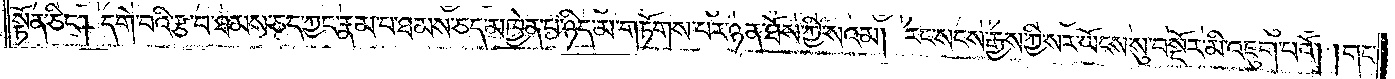སྟོན་ཅིང༌། དགེ་བའི་རྩ་བ་ཐམས་ཅད་ཀྱང་རྣམ་པ་ཐམས་ཅད་མཁྱེན་པ་ཉིད་མ་གཏོགས་པར་ཉན་ཐོས་ཀྱི་སའམ། རང་སངས་རྒྱས་ཀྱི་སར་ཡོངས་སུ་བསྔོར་མི་འཇུག་པའོ། །གང་
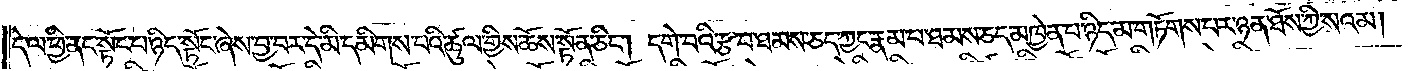དེ་ལ་ཕྱི་ནང་སྟོང་པ་ཉིད་སྟོང་ཞེས་བྱ་བར་དེ་མི་དམིགས་པའི་ཚུལ་གྱིས་ཆོས་སྟོན་ཅིང༌། དགེ་བའི་རྩ་བ་ཐམས་ཅད་ཀྱང་རྣམ་པ་ཐམས་ཅད་མཁྱེན་པ་ཉིད་མ་གཏོགས་པར་ཉན་ཐོས་ཀྱི་སའམ།
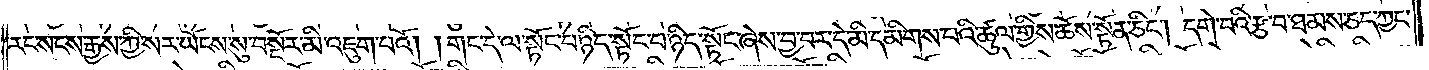རང་སངས་རྒྱས་ཀྱི་སར་ཡོངས་སུ་བསྔོར་མི་འཇུག་པའོ། །གང་དེ་ལ་སྟོང་པ་ཉིད་སྟོང་པ་ཉིད་སྟོང་ཞེས་བྱ་བར་དེ་མི་དམིགས་པའི་ཚུལ་གྱིས་ཆོས་སྟོན་ཅིང༌། དགེ་བའི་རྩ་བ་ཐམས་ཅད་ཀྱང་
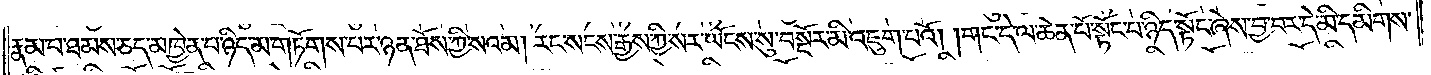རྣམ་པ་ཐམས་ཅད་མཁྱེན་པ་ཉིད་མ་གཏོགས་པར་ཉན་ཐོས་ཀྱི་སའམ། རང་སངས་རྒྱས་ཀྱི་སར་ཡོངས་སུ་བསྔོར་མི་འཇུག་པའོ། །གང་དེ་ལ་ཆེན་པོ་སྟོང་པ་ཉིད་སྟོང་ཞེས་བྱ་བར་དེ་མི་དམིགས་
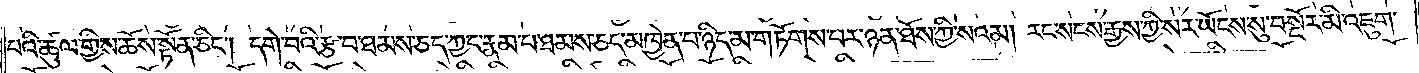པའི་ཚུལ་གྱིས་ཆོས་སྟོན་ཅིང༌། དགེ་བའི་རྩ་བ་ཐམས་ཅད་ཀྱང་རྣམ་པ་ཐམས་ཅད་མཁྱེན་པ་ཉིད་མ་གཏོགས་པར་ཉན་ཐོས་ཀྱི་སའམ། རང་སངས་རྒྱས་ཀྱི་སར་ཡོངས་སུ་བསྔོར་མི་འཇུག་
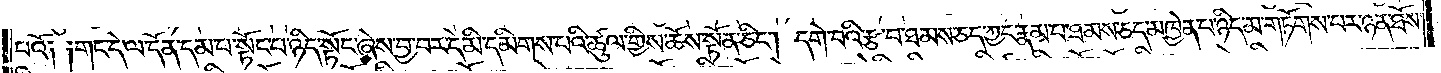པའོ༑ ༑གང་དེ་ལ་དོན་དམ་པ་སྟོང་པ་ཉིད་སྟོང་ཞེས་བྱ་བར་དེ་མི་དམིགས་པའི་ཚུལ་གྱིས་ཆོས་སྟོན་ཅིང༌། དགེ་བའི་རྩ་བ་ཐམས་ཅད་ཀྱང་རྣམ་པ་ཐམས་ཅད་མཁྱེན་པ་ཉིད་མ་གཏོགས་པར་ཉན་ཐོས་
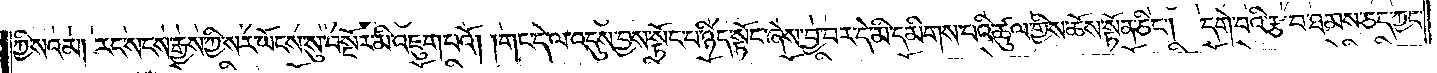ཀྱི་སའམ། རང་སངས་རྒྱས་ཀྱི་སར་ཡོངས་སུ་བསྔོར་མི་འཇུག་པའོ། །གང་དེ་ལ་འདུས་བྱས་སྟོང་པ་ཉིད་སྟོང་ཞེས་བྱ་བར་དེ་མི་དམིགས་པའི་ཚུལ་གྱིས་ཆོས་སྟོན་ཅིང༌། དགེ་བའི་རྩ་བ་ཐམས་ཅད་ཀྱང་
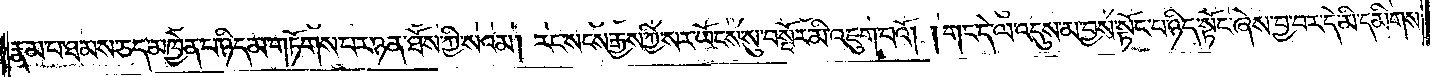རྣམ་པ་ཐམས་ཅད་མཁྱེན་པ་ཉིད་མ་གཏོགས་པར་ཉན་ཐོས་ཀྱི་སའམ། རང་སངས་རྒྱས་ཀྱི་སར་ཡོངས་སུ་བསྔོར་མི་འཇུག་པའོ། །གང་དེ་ལ་འདུས་མ་བྱས་སྟོང་པ་ཉིད་སྟོང་ཞེས་བྱ་བར་དེ་མི་དམིགས་
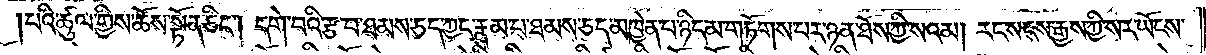པའི་ཚུལ་གྱིས་ཆོས་སྟོན་ཅིང༌། དགེ་བའི་རྩ་བ་ཐམས་ཅད་ཀྱང་རྣམ་པ་ཐམས་ཅད་མཁྱེན་པ་ཉིད་མ་གཏོགས་པར་ཉན་ཐོས་ཀྱི་སའམ། རང་སངས་རྒྱས་ཀྱི་སར་ཡོངས་
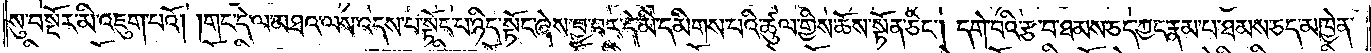སུ་བསྔོར་མི་འཇུག་པའོ། །གང་དེ་ལ་མཐའ་ལས་འདས་པ་སྟོང་པ་ཉིད་སྟོང་ཞེས་བྱ་བར་དེ་མི་དམིགས་པའི་ཚུལ་གྱིས་ཆོས་སྟོན་ཅིང༌། དགེ་བའི་རྩ་བ་ཐམས་ཅད་ཀྱང་རྣམ་པ་ཐམས་ཅད་མཁྱེན་
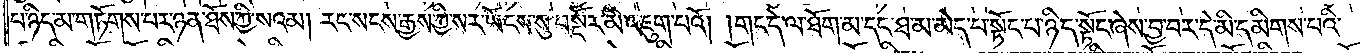པ་ཉིད་མ་གཏོགས་པར་ཉན་ཐོས་ཀྱི་སའམ། རང་སངས་རྒྱས་ཀྱི་སར་ཡོངས་སུ་བསྔོར་མི་འཇུག་པའོ། །གང་དེ་ལ་ཐོག་མ་དང་ཐ་མ་མེད་པ་སྟོང་པ་ཉིད་སྟོང་ཞེས་བྱ་བར་དེ་མི་དམིགས་པའི་
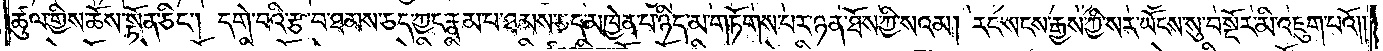ཚུལ་གྱིས་ཆོས་སྟོན་ཅིང༌། དགེ་བའི་རྩ་བ་ཐམས་ཅད་ཀྱང་རྣམ་པ་ཐམས་ཅད་མཁྱེན་པ་ཉིད་མ་གཏོགས་པར་ཉན་ཐོས་ཀྱི་སའམ། རང་སངས་རྒྱས་ཀྱི་སར་ཡོངས་སུ་བསྔོར་མི་འཇུག་པའོ༎
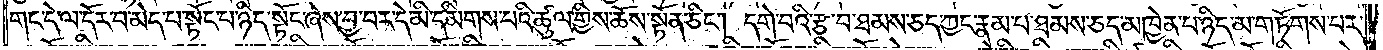གང་དེ་ལ་དོར་བ་མེད་པ་སྟོང་པ་ཉིད་སྟོང་ཞེས་བྱ་བར་དེ་མི་དམིགས་པའི་ཚུལ་གྱིས་ཆོས་སྟོན་ཅིང༌། དགེ་བའི་རྩ་བ་ཐམས་ཅད་ཀྱང་རྣམ་པ་ཐམས་ཅད་མཁྱེན་པ་ཉིད་མ་གཏོགས་པར་
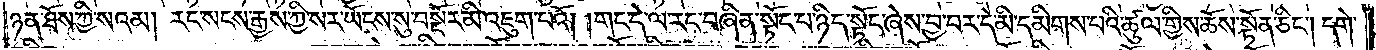ཉན་ཐོས་ཀྱི་སའམ། རང་སངས་རྒྱས་ཀྱི་སར་ཡོངས་སུ་བསྔོར་མི་འཇུག་པའོ། །གང་དེ་ལ་རང་བཞིན་སྟོང་པ་ཉིད་སྟོང་ཞེས་བྱ་བར་དེ་མི་དམིགས་པའི་ཚུལ་གྱིས་ཆོས་སྟོན་ཅིང༌། དགེ་
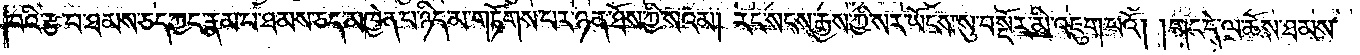བའི་རྩ་བ་ཐམས་ཅད་ཀྱང་རྣམ་པ་ཐམས་ཅད་མཁྱེན་པ་ཉིད་མ་གཏོགས་པར་ཉན་ཐོས་ཀྱི་སའམ། རང་སངས་རྒྱས་ཀྱི་སར་ཡོངས་སུ་བསྔོར་མི་འཇུག་པའོ། །གང་དེ་ལ་ཆོས་ཐམས་
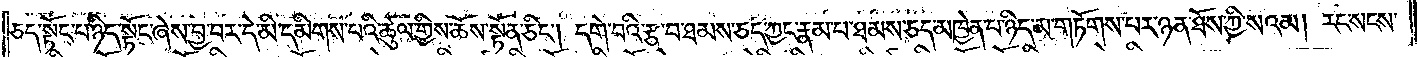ཅད་སྟོང་པ་ཉིད་སྟོང་ཞེས་བྱ་བར་དེ་མི་དམིགས་པའི་ཚུལ་གྱིས་ཆོས་སྟོན་ཅིང༌། དགེ་བའི་རྩ་བ་ཐམས་ཅད་ཀྱང་རྣམ་པ་ཐམས་ཅད་མཁྱེན་པ་ཉིད་མ་གཏོགས་པར་ཉན་ཐོས་ཀྱི་སའམ། རང་སངས་
